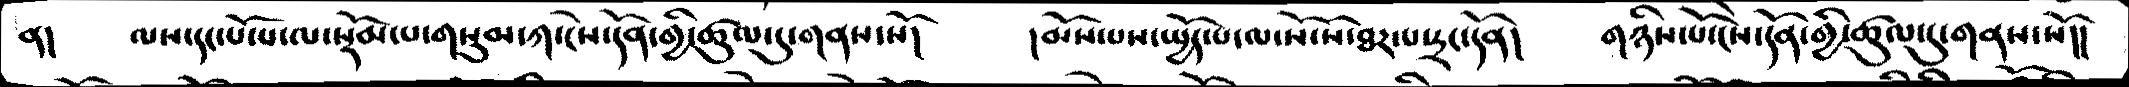ན།    ལས་དང་པོ་པ་ལ་སྡོམ་པ་གསུམ་ཀ་ངེས་དོན་གྱི་ཚུལ་དུ་གནས་སོ།   །མོས་པས་སྤྱོད་པ་ལ་སོ་སོ་ཐར་པ་དྲང་དོན།   གཉིས་པོ་ངེས་དོན་གྱི་ཚུལ་དུ་གནས་སོ།།
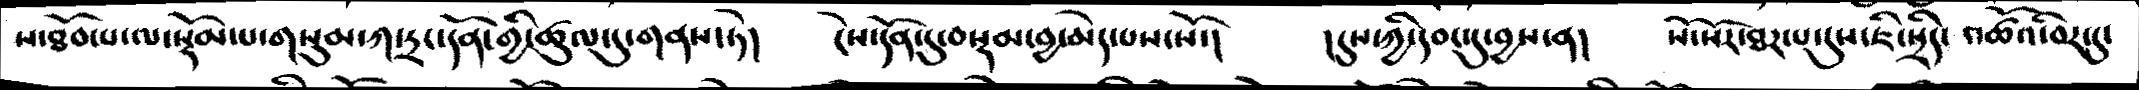ས་ཐོབ་པ་ལ་སྡོམ་པ་གསུམ་ཀ་དྲང་དོན་གྱི་ཚུལ་དུ་གནས་ཏེ།   ངེས་དོན་དུ་བསྡམ་བྱ་མེད་པས་སོ་།   །དུས་ཀྱི་དབང་དུ་བྱས་ན།  སོ་སོར་ཐར་པ་དུས་ཇི་སྲིད་ འཚོའི་བར་དུ་
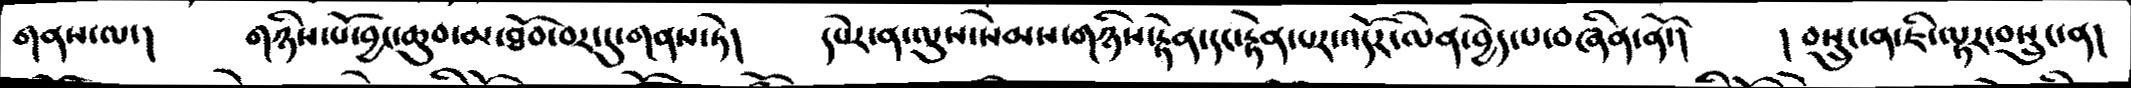གནས་ལ་།   གཉིས་པོ་བྱང་ཆུབ་མ་ཐོབ་བར་དུ་གནས་ཏེ།   དཔེར་ན་ལུས་སེམས་གཉིས་རྟེན་དང་རྟེན་པར་འདོར་ལེན་བྱེད་པ་བཞིན་ནོ་།   །བསྲུང་ན་ཇི་ལྟར་བསྲུང་ན།
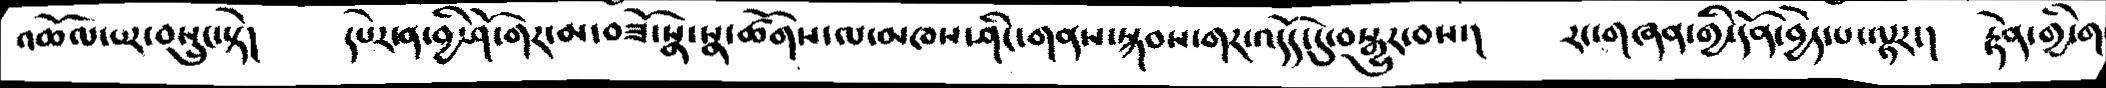འཆོལ་པར་བསྲུང་སྟེ།   དཔེར་ན་བྱི་ཤོ་གར་མ་བཟོ་སྣ་སྣ་ཚོགས་ལ་མཁས་ཤིང་གནས་སྐབས་གར་འདོད་དུ་བསྒྱུར་བས་།   རང་གཞན་གྱི་དོན་བྱེད་པ་ལྟར་།   རྟེན་གྱི་ག
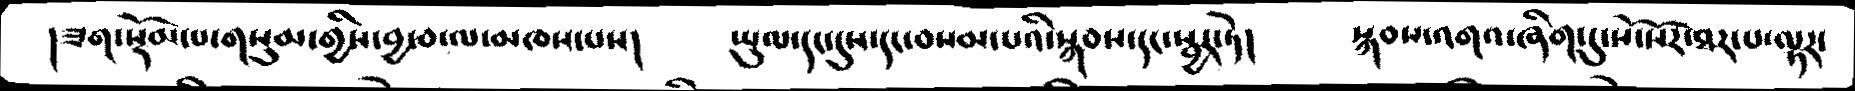།ཟག་སྡོམ་པ་གསུམ་གྱིས་བྱ་བ་ལ་མཁས་པས།   ཡུལ་དང་དུས་དང་བསམ་པའི་སྐབས་དང་སྦྱར་ཏེ།   སྐབས་འགའ་ཞིག་དུ་སོ་སོར་ཐར་པ་ལྟར་
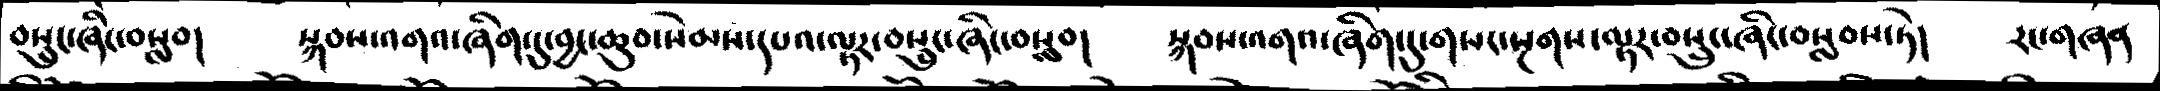བསྲུང་ཞིང་བསླབ།   སྐབས་འགའ་ཞིག་དུ་བྱང་ཆུབ་སེམས་དཔའ་ལྟར་བསྲུང་ཞིང་བསླབ།   སྐབས་འགའ་ཞིག་དུ་གསང་སྔགས་ལྟར་བསྲུང་ཞིང་བསླབས་ཏེ།   རང་གཞན
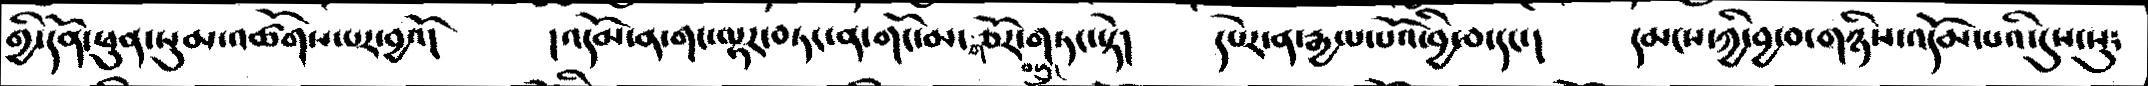གྱི་དོན་ཕུན་སུམ་འཚོགས་པར་བྱའོ།   །འདོམ་ན་གང་ལྟར་བཏང་ན་གོང་མ་གཅོར་གཏང་སྟེ།   དཔེར་ན་རྒྱལ་པོའི་བྱ་བ་དང་།   དམངས་ཀྱི་བྱ་བ་གཉིས་འདོམ་པའི་དུས་སུ༴
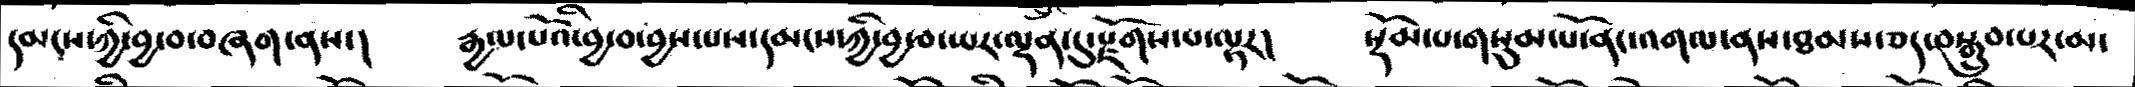དམངས་ཀྱི་བྱ་བ་བཞག་ནས་།   རྒྱལ་པོའི་བྱ་བ་བྱས་པས་དམངས་ཀྱི་བྱ་བ་ཡར་ལྡན་དུ་རྫོགས་པ་ལྟར།   སྡོམ་པ་གསུམ་པོ་ནང་འགལ་ནས་ཐམས་ཅད་བསྒྲུབ་པར་མ་
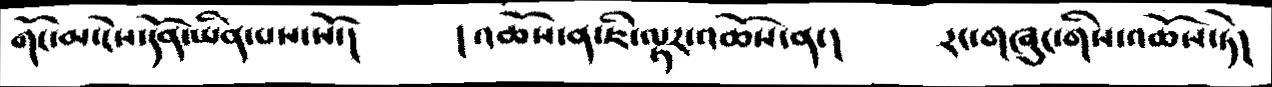གོང་མ་ངེས་དོན་ཡིན་པས་སོ་།   །འཆོས་ན་ཇི་ལྟར་འཆོས་ན་།    རང་གཞུང་གིས་འཆོས་ཏེ།
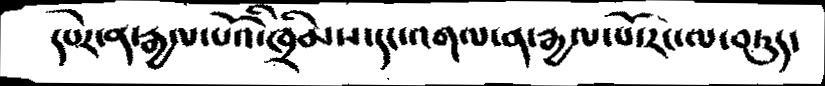དཔེར་ན་རྒྱལ་པོའི་ཁྲིམས་དང་འགལ་ན་རྒྱལ་པོ་རང་ལ་བཏུད་
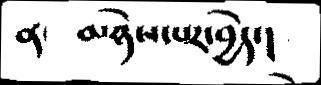ན་   མཉེས་པར་བྱེད་།
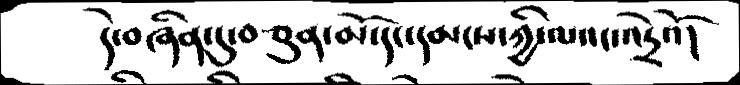དེ་བཞིན་དུ་བཙུན་མོ་དང་དམངས་ཀྱི་ལའང་འདྲེའོ།
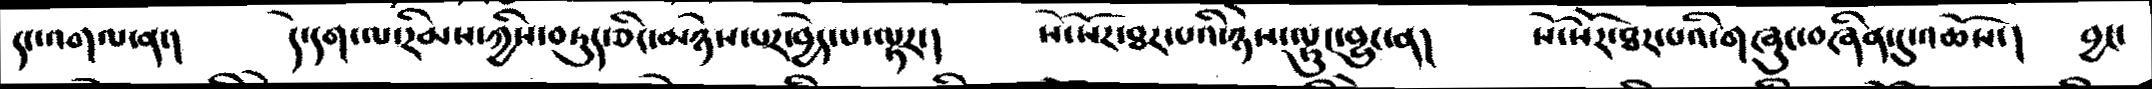དང་འགལ་ན་།   དེ་དག་ལ་རིམས་ཀྱིས་བཏུད་ཅིང་མཉེས་པར་བྱེད་པ་ལྟར་།   སོ་སོར་ཐར་པའི་ཉེས་ལྟུང་བྱུང་ན།   སོ་སོར་ཐར་པའི་གཞུང་བཞིན་དུ་འཆོས་།   བྱང་
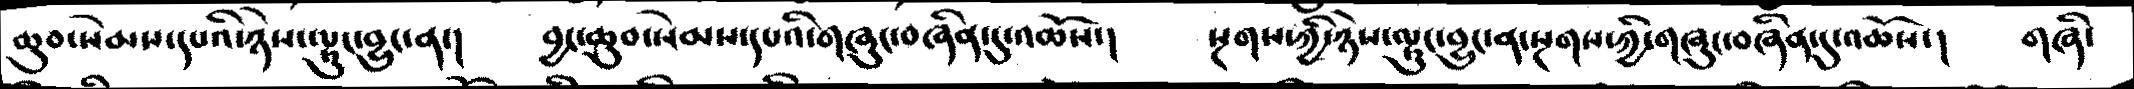ཆུབ་སེམས་དཔའི་ཉེས་ལྟུང་བྱུང་ན་།   བྱང་ཆུབ་སེམས་དཔའི་གཞུང་བཞིན་དུ་འཆོས་།   སྔགས་ཀྱི་ཉེས་ལྟུང་བྱུང་ན་སྔགས་ཀྱི་གཞུང་བཞིན་དུ་འཆོས་།   གཞི་
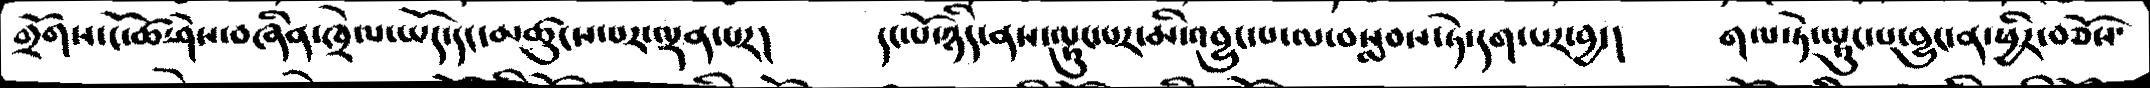གྲོགས་ངོ་ཚ་ཤེས་བཞིན་ཁྲེལ་ཡོད་དང་མཚུངས་པར་ལྡན་པར།   དང་པོ་ཉིད་ནས་ལྟུང་པར་མི་འབྱུང་པ་ལ་བསླབས་ཏེ་དག་པར་བྱ་།   གལ་ཏེ་ལྟུང་པ་བྱུང་ན་ཕྱིར་བཅོས་
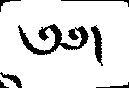༄༅།
